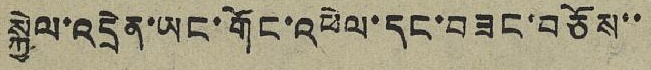སྐྱེལ་འདྲེན་ཡང་གོང་འཕེལ་དང་བཟང་བཅོས་་
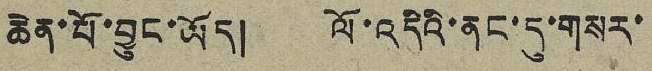ཆེན་པོ་བྱུང་ཡོད། ལོ་འདིའི་ནང་དུ་གསར་
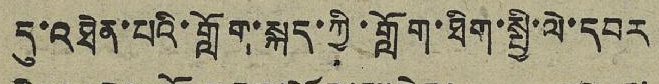དུ་འཐེན་པའི་གློག་སྐད་ཀྱི་གློག་ཐིག་སྤྱི་ལེ་དབར
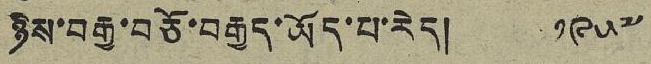ཉིས་བརྒྱ་བཅོ་བརྒྱད་ཡོད་པ་རེད། ༡༩༥༧
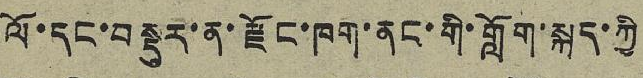ལོ་དང་བསྡུར་ན་རྫོང་ཁག་ནང་གི་གློག་སྐད་ཀྱི
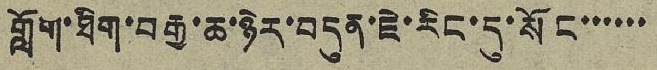གློག་ཐིག་བརྒྱ་ཆ་ཉེར་བདུན་ཇེ་རིང་དུ་སོང་་་་་་
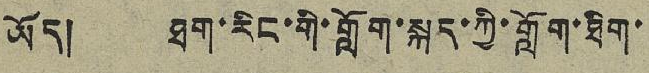ཡོད། ཐག་རིང་གི་གློག་སྐད་ཀྱི་གློག་ཐིག་
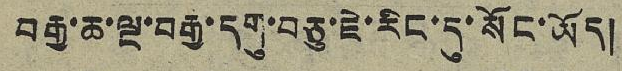བརྒྱ་ཆ་ལྔ་བརྒྱ་དགུ་བཅུ་ཇེ་རིང་དུ་སོང་ཡོད།
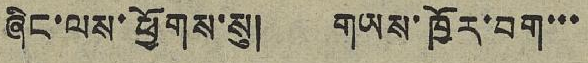ཞིང་ལས་ཕྱོགས་སུ། གཡས་ཁྱོར་བག་་་
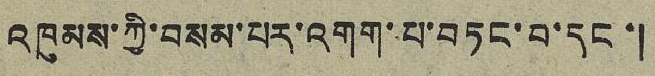འཁུམས་ཀྱི་བསམ་པར་འགག་པ་བཏང་བ་དང་།
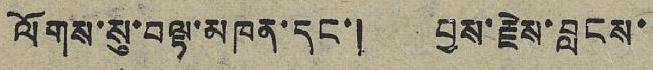ལོགས་སུ་བལྟ་མཁན་དང་། བྱས་རྗེས་བླངས་
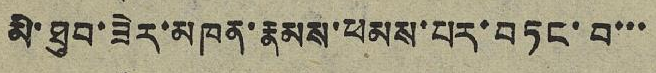མི་ཐུབ་ཟེར་མཁན་རྣམས་ཕམས་པར་བཏང་བ་་་
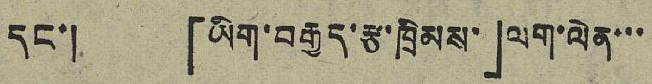དང་། 「ཡིག་བརྒྱད་རྩ་ཁྲིམས་」ལག་ལེན་་་
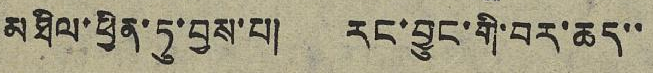མཐིལ་ཕྱིན་ཏུ་བྱས་པ། རང་བྱུང་གི་བར་ཆད་་
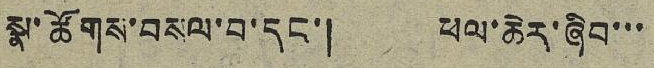སྣ་ཚོགས་བསལ་བ་དང་། ཕལ་ཆེར་ཞིབ་་་
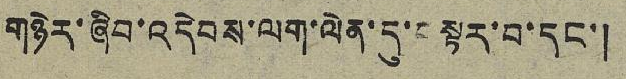གཉེར་ཞིབ་འདེབས་ལག་ལེན་དུ་བསྟར་བ་དང་།
